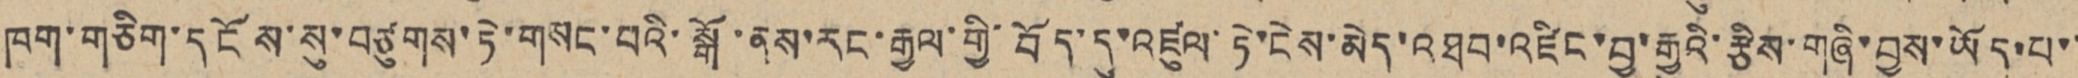ཁག་གཅིག་དངོས་སུ་བཙུགས་ཏེ་གསང་པའི་སྒོ་ནས་རང་རྒྱལ་གྱི་བོད་དུ་འཛུལ་ཏེ་ངེས་མེད་འཐབ་འཛིང་བྱ་རྒྱུའི་རྩིས་གཞི་བྱས་ཡོད་པ་་
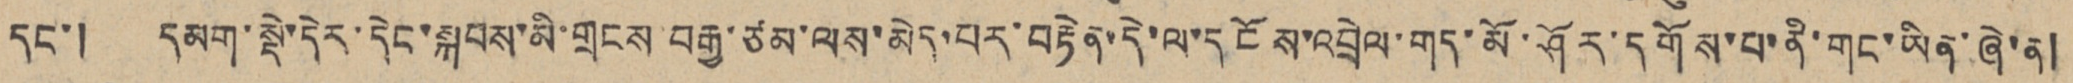དང་། དམག་སྡེ་དེར་དེང་སྐབས་མི་གྲངས བརྒྱ་ཙམ་ལས་མེད་པར་བརྟེན་དེ་ལ་དངོས་འབྲེལ་གད་མོ་ཤོར་དགོས་པ་ནི་གང་ཡིན་ཞེ་ན།
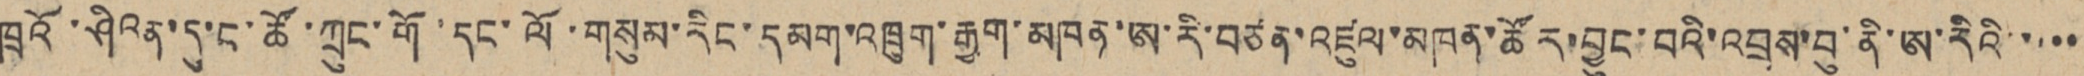ཁྲའོ་ཤིའན་དུ་ང་ཚོ་ཀྲུང་གོ་དང་ལོ་གསུམ་རིང་དམག་འཁྲུག་རྒྱག་མཁན་ཨ་རི་བཙན་འཛུལ་མཁན་ཚོར་བྱུང་བའི་འབྲས་བུ་ནི་ཨ་རིའི་་་་་
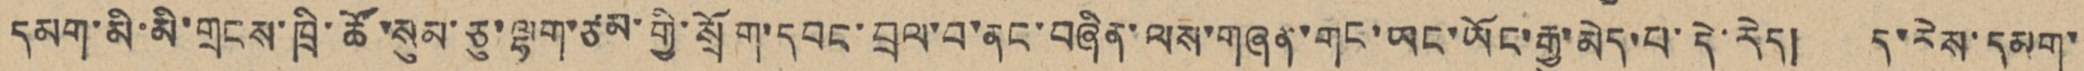དམག་མི་མི་གྲངས་ཁྲི་ཚོ་སུམ་ཅུ་ལྷག་ཙམ་གྱི་སྲོག་དབང་བྲལ་བ་ནང་བཞིན་ལས་གཞན་གང་ཡང་ཡོང་རྒྱུ་མེད་པ་དེ་རེད། ད་རེས་དམག་
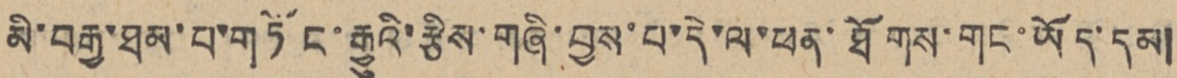མི་བརྒྱ་ཐམ་པ་གཏོང་རྒྱུའི་རྩིས་གཞི་བྱས་པ་དེ་ལ་ཕན་ཐོགས་གང་ཡོད་དམ།
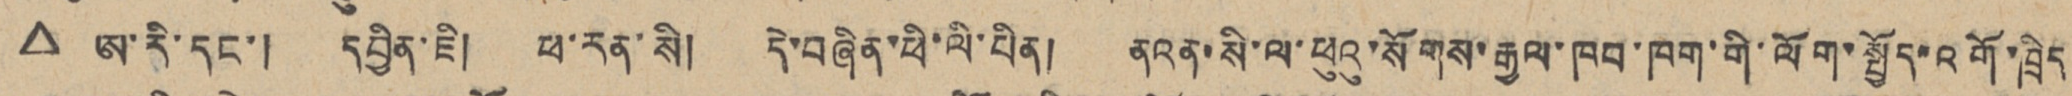△ ཨ་རི་དང་། དབྱིན་ཇི། ཕ་རན་སི། དེ་བཞིན་ཕི་ལི་པིན། ནའན་སི་ལ་ཕུའུ་སོགས་རྒྱལ་ཁབ་ཁག་གི་ལོག་སྤྱོད་འགོ་ཁྲིད
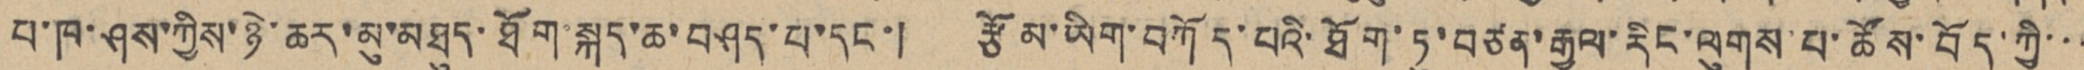པ་ཁ་ཤས་ཀྱིས་ཉེ་ཆར་མུ་མཐུད་ཐོག་སྐད་ཆ་བཤད་པ་དང་། རྩོམ་ཡིག་བཀོད་པའི་ཐོག་ཏུ་བཙན་རྒྱལ་རིང་ལུགས་པ་ཚོས་བོད་ཀྱི་་་
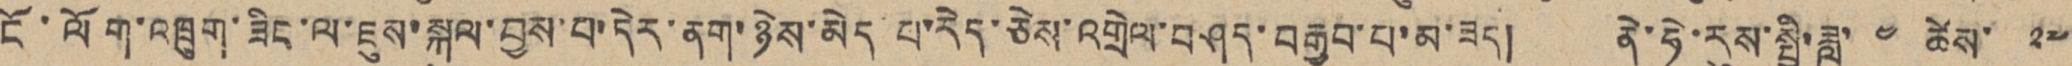ངོ་ལོག་འཁྲུག་ཟིང་ལ་ཇུས་སྐུལ་བྱས་པ་དེར་ནག་ཉེས་མེད་པ་རེད་ཅེས་འགྲེལ་བཤད་བརྒྱབ་པ་མ་ཟད། ནེ་ཧེ་རུས་སྤྱི་ཟླ་ ༤ ཚེས་ ༢༧
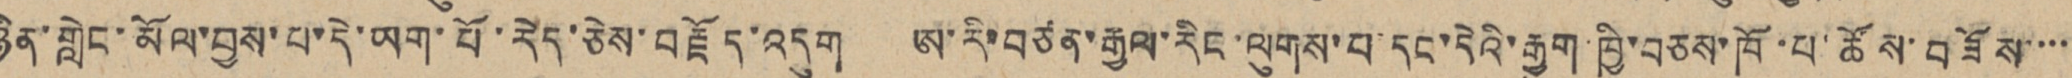ཉིན་གླེང་མོལ་བྱས་པ་དེ་ཡག་པོ་རེད་ཅེས་བརྗོད་འདུག ཨ་རི་བཙན་རྒྱལ་རིང་ལུགས་པ་དང་དེའི་རྒྱུག་ཁྱི་བཅས་ཁོ་པ་ཚོས་བཟོས་་་་
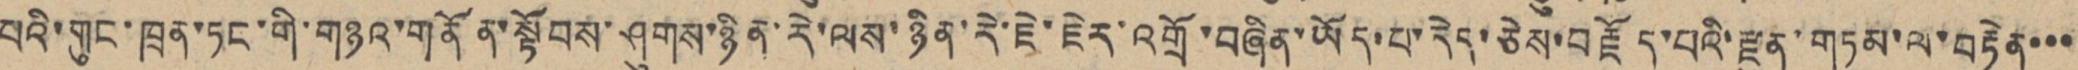པའི་གུང་ཁྲན་ཏང་གི་གཉའ་གནོན་སྟོབས་ཤུགས་ཉིན་རེ་ལས་ཉིན་རེ་ཇེ་ཇེར་འགྲོ་བཞིན་ཡོད་པ་རེད་ཅེས་བརྗོད་པའི་རྫུན་གཏམ་ལ་བརྟེན་་་
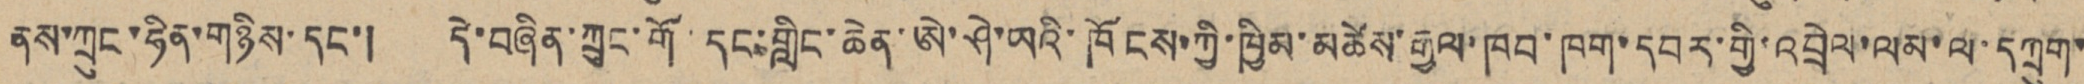ནས་ཀྲུང་ཧིན་གཉིས་དང་། དེ་བཞིན་ཀྲུང་གོ་དང་གླིང་ཆེན་ཨེ་ཤེ་ཡའི་ཁོངས་ཀྱི་ཁྱིམ་མཚེས་རྒྱལ་ཁབ་ཁག་དབར་གྱི་འབྲེལ་ལམ་ལ་དཀྲུག་
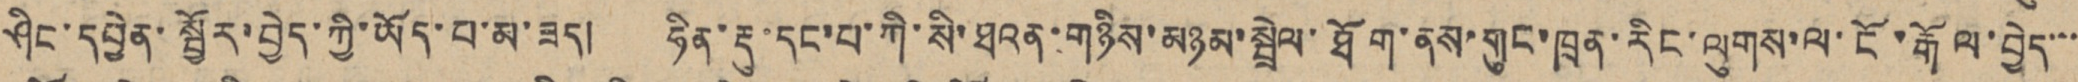ཤིང་དབྱིན་སྦྱོར་བྱེད་ཀྱི་ཡོད་པ་མ་ཟད། ཧིན་རྡུ་དང་པ་ཀི་སི་ཐའན་གཉིས་མཉམ་སྦྲེལ་ཐོག་ནས་གུང་ཁྲན་རིང་ལུགས་ལ་ངོ་རྒོལ་བྱེད་་་
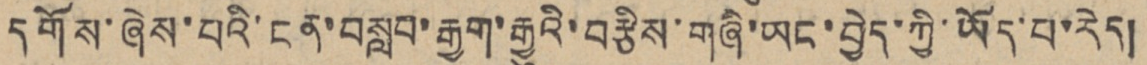དགོས་ཞེས་པའི་ངན་བསླབ་རྒྱག་རྒྱུའི་བརྩིས་གཞི་ཡང་བྱེད་ཀྱི་ཡོད་པ་རེད།
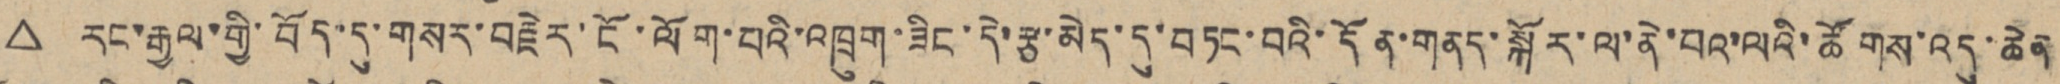△ རང་རྒྱལ་གྱི་བོད་དུ་གསར་བརྗེར་ངོ་ལོག་པའི་འཁྲུག་ཟིང་དེ་རྩ་མེད་དུ་བཏང་བའི་དོན་གནད་སྐོར་ལ་ནེ་པའ་ལའི་ཚོགས་འདུ་ཆེན
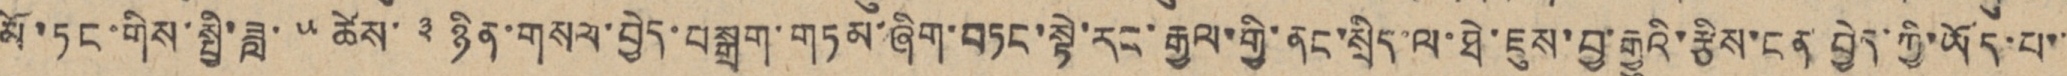མོ་ཏང་གིས་སྤྱི་ཟླ་ ༥ ཚེས་ ༣ ཉིན་གསལ་བྱེད་བསྒྲག་གཏམ་ཞིག་བཏང་སྟེ་རང་རྒྱལ་གྱི་ནང་སྲིད་ལ་ཐེ་ཇུས་བྱ་རྒྱུའི་རྩིས་ངན བྱེད་ཀྱི་ཡོད་པ་་
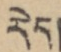རེད།
